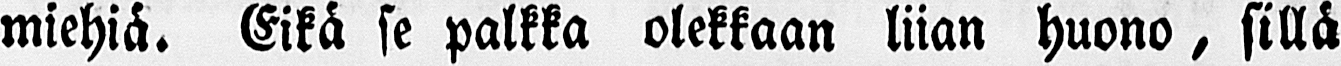miehiä. Eikä se palkka olekkaan liian huono, sillä
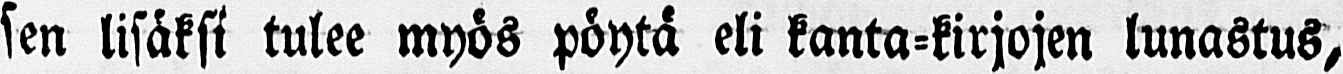sen lisäksi tulee myös pöytä eli kanta-kirjojen lunastus,
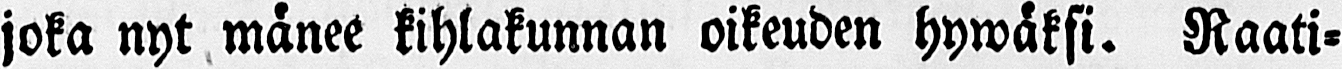joka nyt mänee kihlakunnan oikeuden hywäksi. Raati-
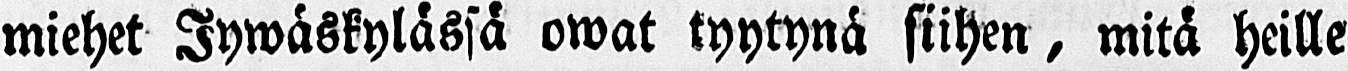miehet Jywäskylässä owat tyytynä siihen, mitä heille
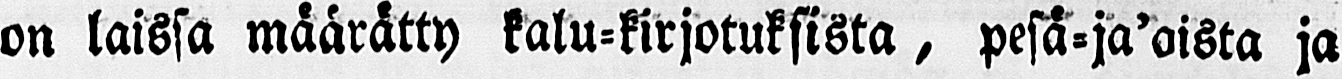on laissa määrätty kalu-kirjotuksista, pesä-ja'oista ja
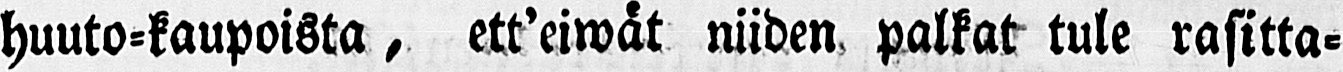huuto-kaupoista, ett'eiwät niiden, palkat tule rasitta-
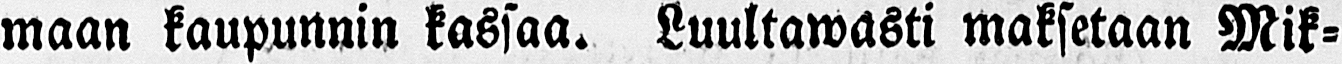maan kaupunnin kassaa. Luultawasti maksetaan Mik-
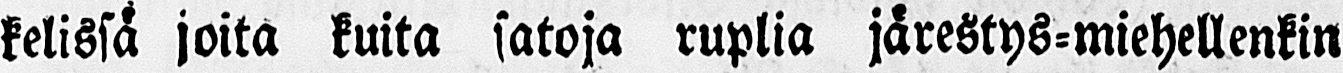kelissä joita kuita satoja ruplia järestys-miehellenkin
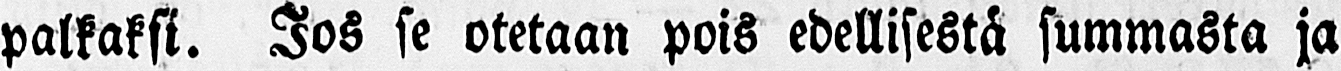palkaksi. Jos se otetaan pois edellisestä summasta ja
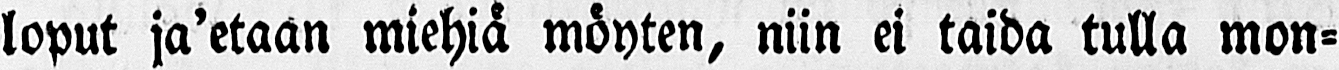loput ja'etaan miehiä möyten, niin ei taida tulla mon-
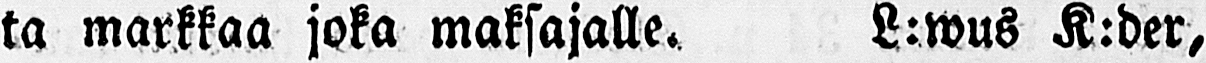ta markkaa joka maksajalle. L:wus K:der,
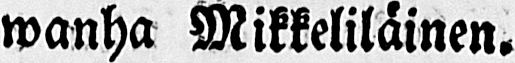wanha Mikkeliläinen.
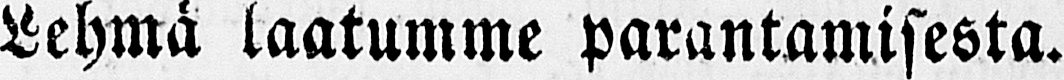Lehmä laatumme parantamisesta.
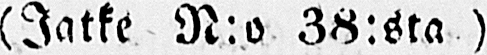(Jatke N:o 38:sta.)
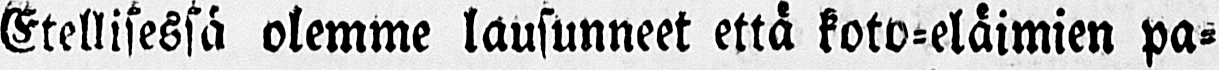Etellisessä olemme lausunneet että koto-eläimien pa-
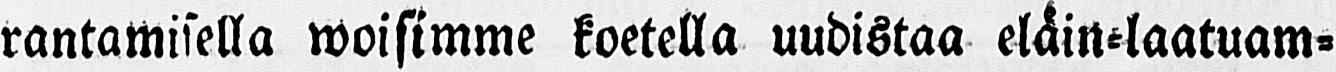rantamisella woisimme koetella uudistaa eläin-laatuam-
